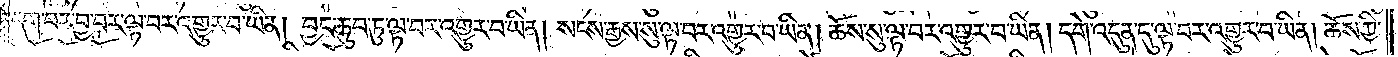དག་པར་བྱ་བར་ལྟ་བར་འགྱུར་བ་ཡིན། བྱང་ཆུབ་ཏུ་ལྟ་བར་འགྱུར་བ་ཡིན། སངས་རྒྱས་སུ་ལྟ་བར་འགྱུར་བ་ཡིན། ཆོས་སུ་ལྟ་བར་འགྱུར་བ་ཡིན། དགེ་འདུན་དུ་ལྟ་བར་འགྱུར་བ་ཡིན། ཆོས་ཀྱི་
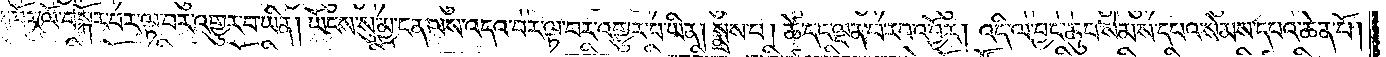འཁོར་ལོ་བསྐོར་བར་ལྟ་བར་འགྱུར་བ་ཡིན། ཡོངས་སུ་མྱ་ངན་ལས་འདའ་བར་ལྟ་བར་འགྱུར་བ་ཡིན། སྨྲས་པ། ཚེ་དང་ལྡན་པ་རབ་འབྱོར། འདི་ལ་བྱང་ཆུབ་སེམས་དཔའ་སེམས་དཔའ་ཆེན་པོ།
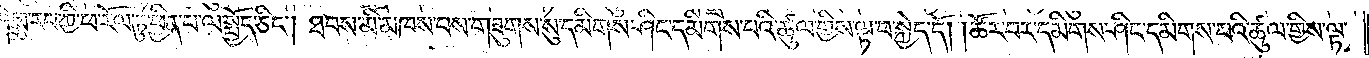ཤེས་རབ་ཀྱི་ཕ་རོལ་ཏུ་ཕྱིན་པ་ལ་སྤྱོད་ཅིང༌། ཐབས་མི་མཁས་པས་གཟུགས་སུ་དམིགས་ཤིང་དམིགས་པའི་ཚུལ་གྱིས་ལྟ་བ་སྐྱེད་དོ། །ཚོར་བར་དམིགས་ཤིང་དམིགས་པའི་ཚུལ་གྱིས་ལྟ་
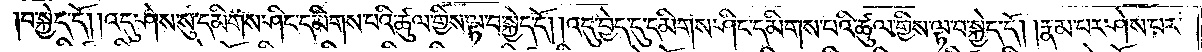བ་སྐྱེད་དོ། །འདུ་ཤེས་སུ་དམིགས་ཤིང་དམིགས་པའི་ཚུལ་གྱིས་ལྟ་བ་སྐྱེད་དོ། །འདུ་བྱེད་དུ་དམིགས་ཤིང་དམིགས་པའི་ཚུལ་གྱིས་ལྟ་བ་སྐྱེད་དོ། །རྣམ་པར་ཤེས་པར་
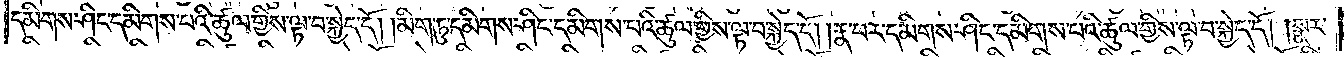དམིགས་ཤིང་དམིགས་པའི་ཚུལ་གྱིས་ལྟ་བ་སྐྱེད་དོ། །མིག་ཏུ་དམིགས་ཤིང་དམིགས་པའི་ཚུལ་གྱིས་ལྟ་བ་སྐྱེད་དོ། །རྣ་བར་དམིགས་ཤིང་དམིགས་པའི་ཚུལ་གྱིས་ལྟ་བ་སྐྱེད་དོ། །སྣར་
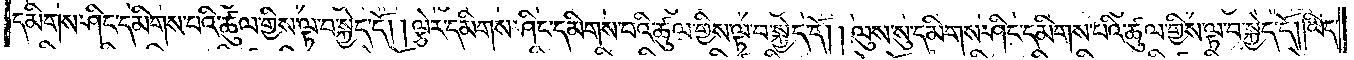དམིགས་ཤིང་དམིགས་པའི་ཚུལ་གྱིས་ལྟ་བ་སྐྱེད་དོ། །ལྕེར་དམིགས་ཤིང་དམིགས་པའི་ཚུལ་གྱིས་ལྟ་བ་སྐྱེད་དོ། །ལུས་སུ་དམིགས་ཤིང་དམིགས་པའི་ཚུལ་གྱིས་ལྟ་བ་སྐྱེད་དོ། །ཡིད་
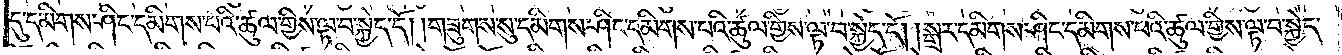དུ་དམིགས་ཤིང་དམིགས་པའི་ཚུལ་གྱིས་ལྟ་བ་སྐྱེད་དོ། །གཟུགས་སུ་དམིགས་ཤིང་དམིགས་པའི་ཚུལ་གྱིས་ལྟ་བ་སྐྱེད་དོ། །སྒྲར་དམིགས་ཤིང་དམིགས་པའི་ཚུལ་གྱིས་ལྟ་བ་སྐྱེད་
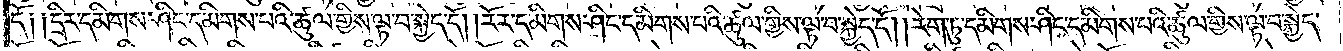དོ། །དྲིར་དམིགས་ཤིང་དམིགས་པའི་ཚུལ་གྱིས་ལྟ་བ་སྐྱེད་དོ། །རོར་དམིགས་ཤིང་དམིགས་པའི་ཚུལ་གྱིས་ལྟ་བ་སྐྱེད་དོ། །རེག་ཏུ་དམིགས་ཤིང་དམིགས་པའི་ཚུལ་གྱིས་ལྟ་བ་སྐྱེད་
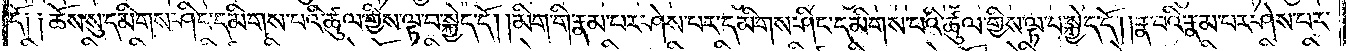དོ། །ཆོས་སུ་དམིགས་ཤིང་དམིགས་པའི་ཚུལ་གྱིས་ལྟ་བ་སྐྱེད་དོ། །མིག་གི་རྣམ་པར་ཤེས་པར་དམིགས་ཤིང་དམིགས་པའི་ཚུལ་གྱིས་ལྟ་བ་སྐྱེད་དོ། །རྣ་བའི་རྣམ་པར་ཤེས་པར་
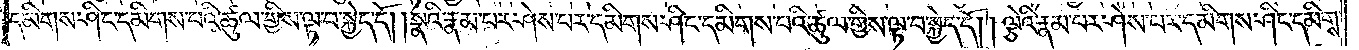དམིགས་ཤིང་དམིགས་པའི་ཚུལ་གྱིས་ལྟ་བ་སྐྱེད་དོ། །སྣའི་རྣམ་པར་ཤེས་པར་དམིགས་ཤིང་དམིགས་པའི་ཚུལ་གྱིས་ལྟ་བ་སྐྱེད་དོ། །ལྕེའི་རྣམ་པར་ཤེས་པར་དམིགས་ཤིང་དམིགས་
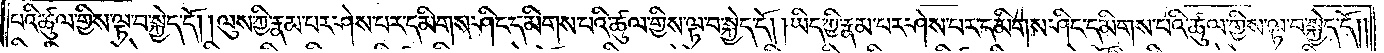པའི་ཚུལ་གྱིས་ལྟ་བ་སྐྱེད་དོ། །ལུས་ཀྱི་རྣམ་པར་ཤེས་པར་དམིགས་ཤིང་དམིགས་པའི་ཚུལ་གྱིས་ལྟ་བ་སྐྱེད་དོ། །ཡིད་ཀྱི་རྣམ་པར་ཤེས་པར་དམིགས་ཤིང་དམིགས་པའི་ཚུལ་གྱིས་ལྟ་བ་སྐྱེད་དོ། །
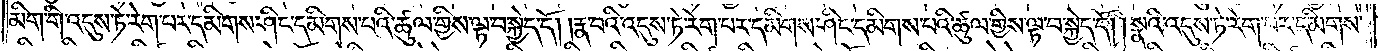མིག་གི་འདུས་ཏེ་རེག་པར་དམིགས་ཤིང་དམིགས་པའི་ཚུལ་གྱིས་ལྟ་བ་སྐྱེད་དོ། །རྣ་བའི་འདུས་ཏེ་རེག་པར་དམིགས་ཤིང་དམིགས་པའི་ཚུལ་གྱིས་ལྟ་བ་སྐྱེད་དོ། །སྣའི་འདུས་ཏེ་རེག་པར་དམིགས་
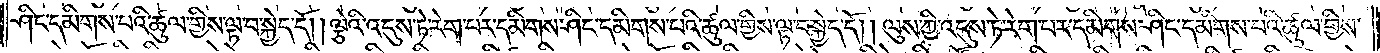ཤིང་དམིགས་པའི་ཚུལ་གྱིས་ལྟ་བ་སྐྱེད་དོ། །ལྕེའི་འདུས་ཏེ་རེག་པར་དམིགས་ཤིང་དམིགས་པའི་ཚུལ་གྱིས་ལྟ་བ་སྐྱེད་དོ། །ལུས་ཀྱི་འདུས་ཏེ་རེག་པར་དམིགས་ཤིང་དམིགས་པའི་ཚུལ་གྱིས་
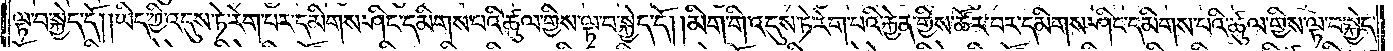ལྟ་བ་སྐྱེད་དོ། །ཡིད་ཀྱི་འདུས་ཏེ་རེག་པར་དམིགས་ཤིང་དམིགས་པའི་ཚུལ་གྱིས་ལྟ་བ་སྐྱེད་དོ། །མིག་གི་འདུས་ཏེ་རེག་པའི་རྐྱེན་གྱིས་ཚོར་བར་དམིགས་ཤིང་དམིགས་པའི་ཚུལ་གྱིས་ལྟ་བ་སྐྱེད་
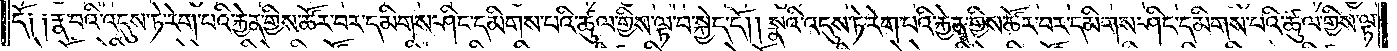དོ༑ ༑རྣ་བའི་འདུས་ཏེ་རེག་པའི་རྐྱེན་གྱིས་ཚོར་བར་དམིགས་ཤིང་དམིགས་པའི་ཚུལ་གྱིས་ལྟ་བ་སྐྱེད་དོ། །སྣའི་འདུས་ཏེ་རེག་པའི་རྐྱེན་གྱིས་ཚོར་བར་དམིགས་ཤིང་དམིགས་པའི་ཚུལ་གྱིས་ལྟ་
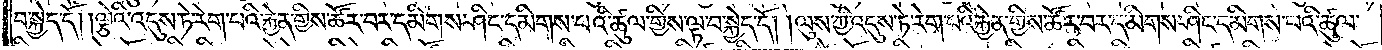བ་སྐྱེད་དོ། །ལྕེའི་འདུས་ཏེ་རེག་པའི་རྐྱེན་གྱིས་ཚོར་བར་དམིགས་ཤིང་དམིགས་པའི་ཚུལ་གྱིས་ལྟ་བ་སྐྱེད་དོ། །ལུས་ཀྱི་འདུས་ཏེ་རེག་པའི་རྐྱེན་གྱིས་ཚོར་བར་དམིགས་ཤིང་དམིགས་པའི་ཚུལ་
